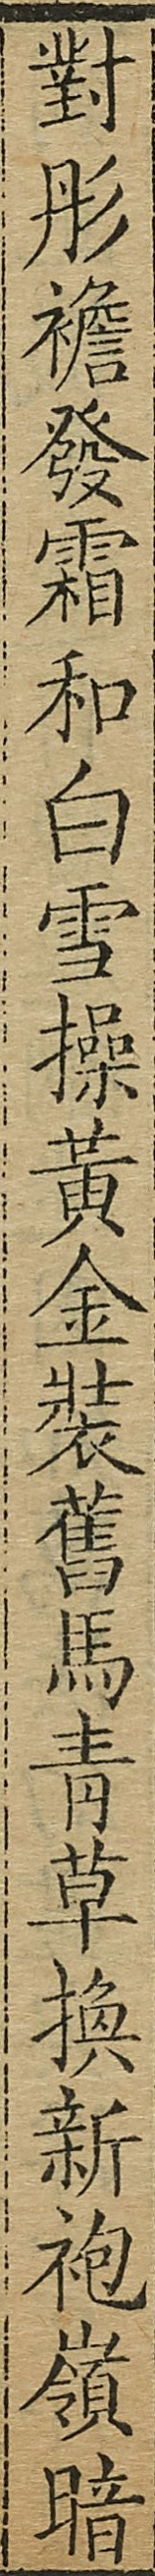對彤襜發霜和白雪操黃金裝舊馬青草換新袍嶺暗
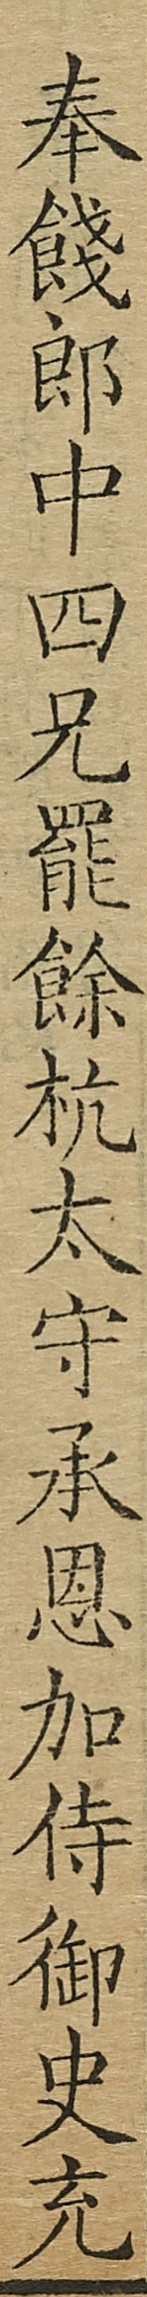奉餞郎中四兄罷餘杭太守承恩加侍御史充
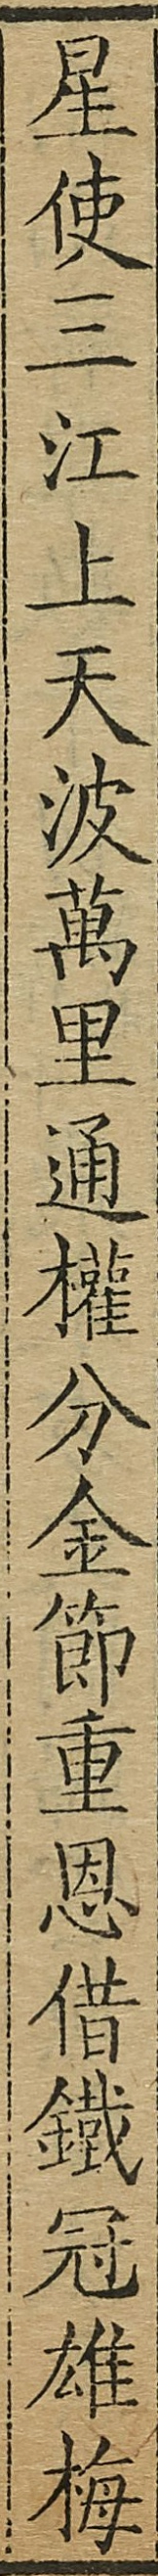星使三江上天波萬里通權分金節重恩借鐵冠雄梅
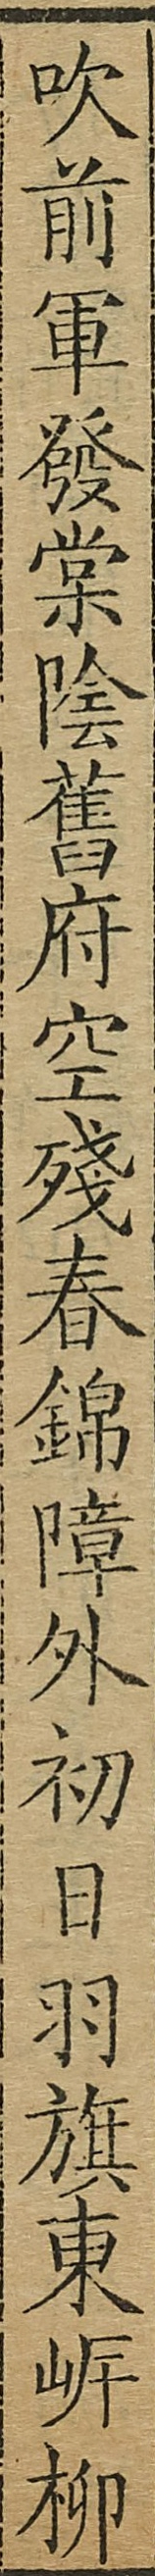吹前軍發棠陰舊府空殘春錦障外初日羽旗東岸柳
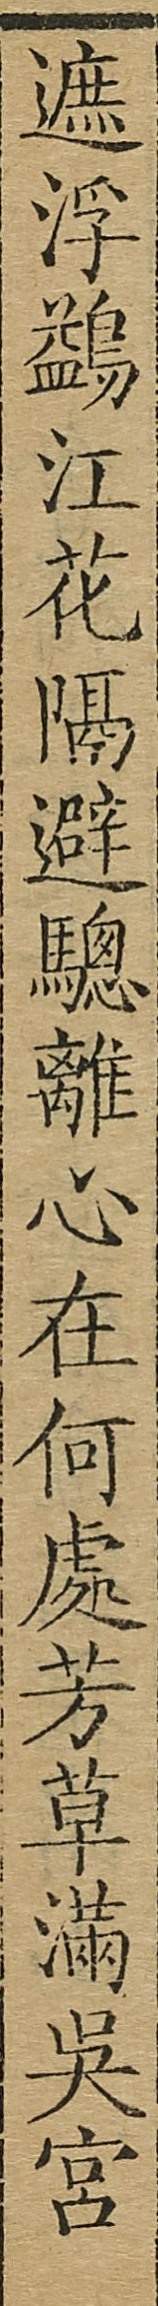遮浮鷁江花隔避驄離心在何處芳草滿吳宮
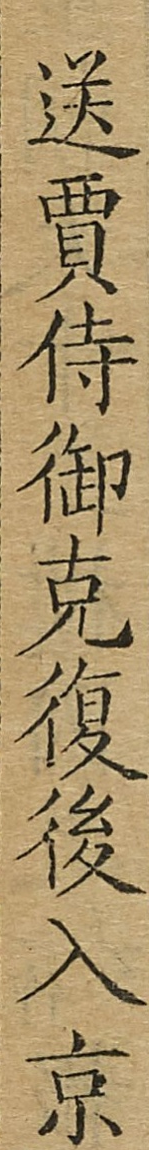送賈侍御克復後入京
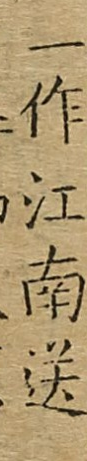一作江南送
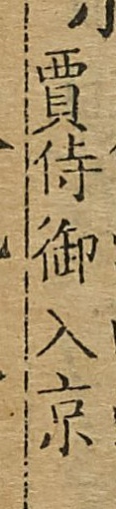賈侍御入京
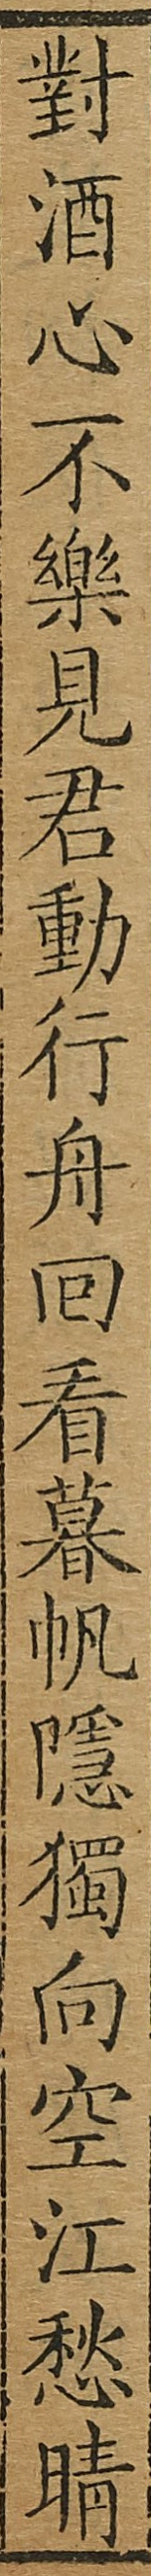對酒心不樂見君動行舟回看暮帆隱獨向空江愁晴
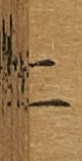二
